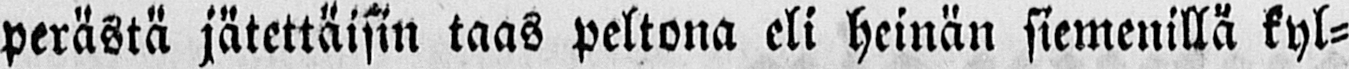perästä jätettäisin taas peltona eli heinän siemenillä kyl-
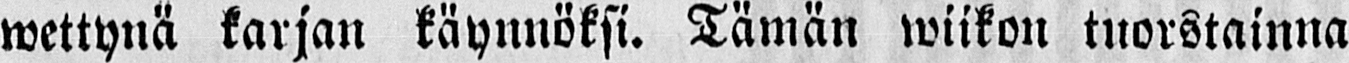wettynä karjan käynnöksi. Tämän wiikon tuorstainna
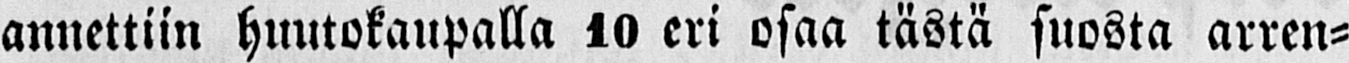annettiin huutokaupalla 10 eri osaa tästä suosta arren-
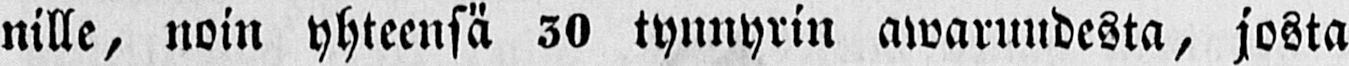nille, noin yhteensä 30 tynnyrin awaruudesta, josta
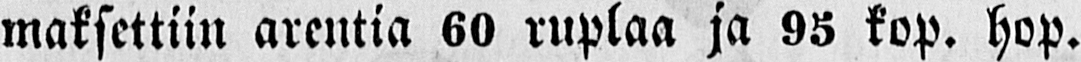maksettiin arentia 60 ruplaa ja 95 kop. hop.
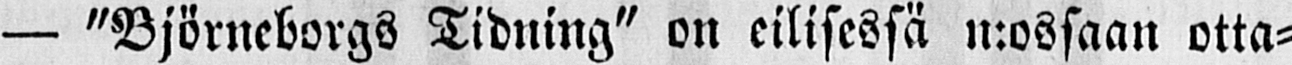— "Björneborgs Tidning" on eilisessä n:ossaan otta-
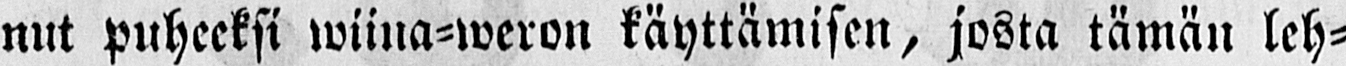nut puheeksi wiina-weron käyttämisen, josta tämän leh-
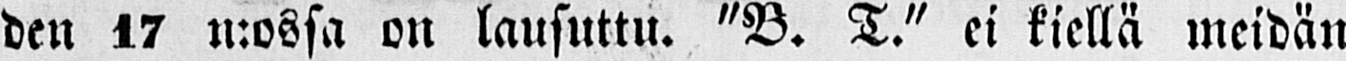den 17 n:ossa on lausuttu. "B. T." ei kiellä meidän
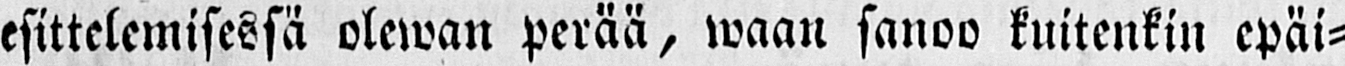esittelemisessä olewan perää, waan sanoo kuitenkin epäi-
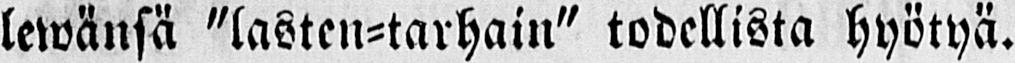lemänsä "lasten-tarhain" todellista hyötyä.
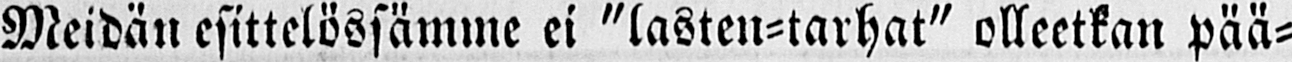Meidän esittelössämme ei "lasten-tarhat" olleetkan pää-
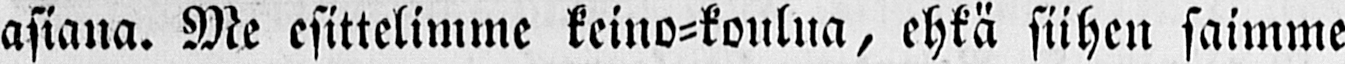asiana. Me esittelimme keino-koulua, ehkä siihen saimme
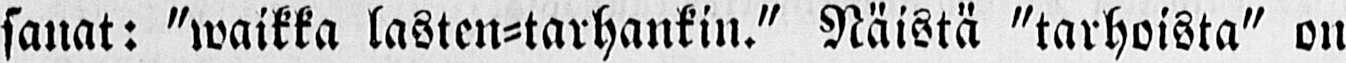sanat: "waikka lasten-tarhankin." Näistä "tarhoista" on
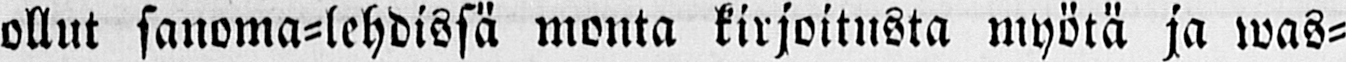ollut sanoma-lehdissä monta kirjoitusta myötä ja was-
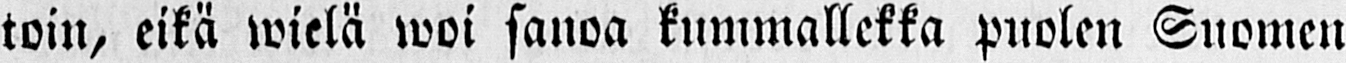toin, eikä wielä woi sanoa kummallekka puolen Suomen
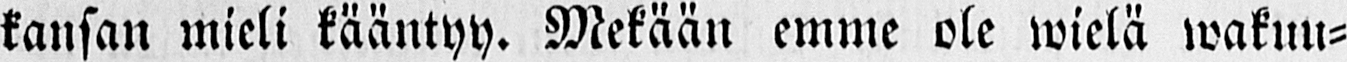kansan mieli kääntyy. Mekään emme ole wielä wakuu-
